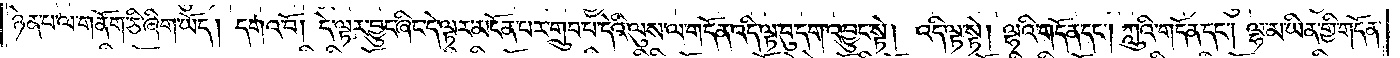ཉེན་པ་ལ་གནོག་ཅི་ཞིག་ཡོད། དགའ་བོ། དེ་ལྟར་བྱུང་ཞིང་དེ་ལྟར་མངོན་པར་གྲུབ་པ་དེའི་ལུས་ལ་གདོན་འདི་ལྟ་བུ་དག་འབྱུང་སྟེ། འདི་ལྟ་སྟེ། ལྷའི་གདོན་དང༌། ཀླུའི་གདོན་དང༌། ལྷ་མ་ཡིན་གྱི་གདོན་
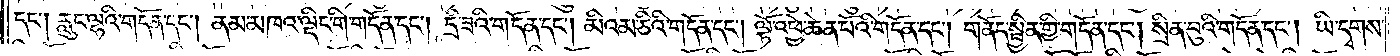དང༌། རླུང་ལྷའི་གདོན་དང༌། ནམ་མཁའ་ལྡིང་གི་གདོན་དང༌། དྲི་ཟའི་གདོན་དང༌། མིའམ་ཅིའི་གདོན་དང༌། ལྟོ་འཕྱེ་ཆེན་པོའི་གདོན་དང༌། གནོད་སྦྱིན་གྱི་གདོན་དང༌། སྲིན་བུའི་གདོན་དང༌། ཡི་དྭགས་
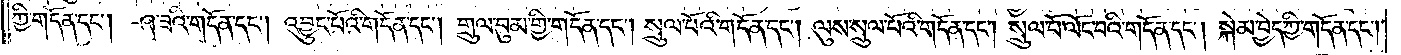ཀྱི་གདོན་དང༌། ཤ་ཟའི་གདོན་དང༌། འབྱུང་པོའི་གདོན་དང༌། གྲུལ་བུམ་གྱི་གདོན་དང༌། སྲུལ་པོའི་གདོན་དང༌། ལུས་སྲུལ་པོའི་གདོན་དང༌། སྲུལ་པོ་ལོང་བའི་གདོན་དང༌། སྐེམ་བྱེད་ཀྱི་གདོན་དང༌།
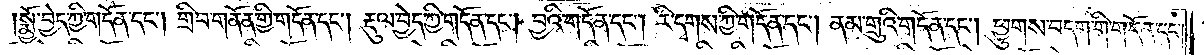སྨྱོ་བྱེད་ཀྱི་གདོན་དང༌། གྲིབ་གནོན་གྱི་གདོན་དང༌། རྡུལ་བྱེད་ཀྱི་གདོན་དང༌། བྱའི་གདོན་དང༌། རི་དྭགས་ཀྱི་གདོན་དང༌། ནམ་གྲུའི་གདོན་དང༌། ཕྱུགས་བདག་གི་གདོན་དང་
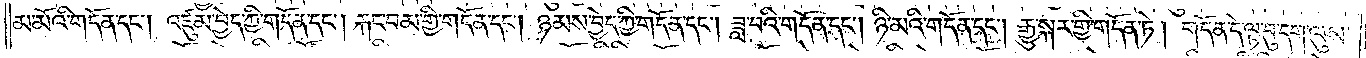མ་མོའི་གདོན་དང༌། འཛུམ་བྱེད་ཀྱི་གདོན་དང༌། རྐང་བམ་གྱི་གདོན་དང༌། ཉམས་བྱེད་ཀྱི་གདོན་དང༌། ཟླ་བའི་གདོན་དང༌། ཉི་མའི་གདོན་དང༌། རྒྱུ་སྐར་གྱི་གདོན་ཏེ། གདོན་དེ་ལྟ་བུ་དག་ལུས་
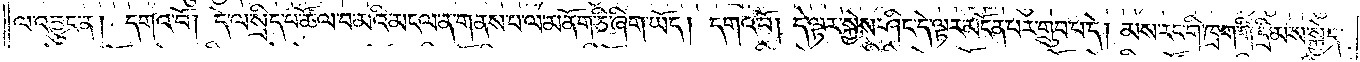ལ་འབྱུང་ན། དགའ་བོ། དེ་ལ་སྲིད་པ་ཚོལ་བ་མའི་མངལ་ན་གནས་པ་ལ་མནོག་ཅི་ཞིག་ཡོད། དགའ་བོ། དེ་ལྟར་སྐྱེས་ཤིང་དེ་ལྟར་མངོན་པར་གྲུབ་པ་དེ། མས་རང་གི་ཁྲག་གི་དྲི་མས་སྐྱེད་
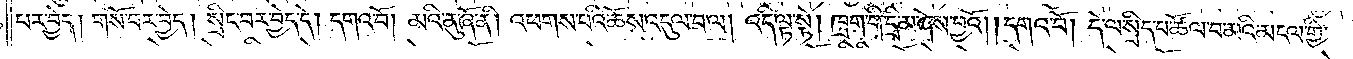པར་བྱེད། གསོ་བར་བྱེད། སྲིང་བར་བྱེད་དེ། དགའ་བོ། མའི་ནུ་ཞོ་ནི། འཕགས་པའི་ཆོས་འདུལ་བ་ལ། འདི་ལྟ་སྟེ། ཁྲག་གི་དྲི་མ་ཞེས་བྱའོ། །དགའ་བོ། དེ་ལ་སྲིད་པ་ཚོལ་བ་མའི་མངལ་གྱི་
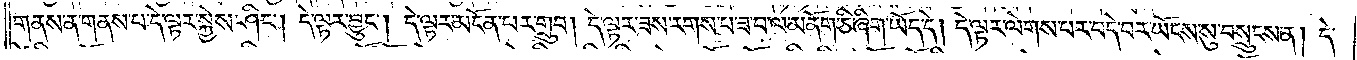གནས་ན་གནས་པ་དེ་ལྟར་སྐྱེས་ཤིང༌། དེ་ལྟར་བྱུང༌། དེ་ལྟར་མངོན་པར་གྲུབ། དེ་ལྟར་ཟས་རགས་པ་ཟ་བ་ལ་མནོག་ཅི་ཞིག་ཡོད་དེ། དེ་ལྟར་ལེགས་པར་བདེ་བར་ཡོངས་སུ་བསྲུངས་ན། དེ་
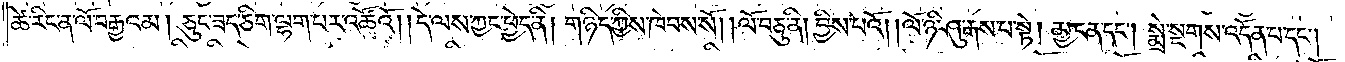ཚེ་རིང་ན་ལོ་བརྒྱའམ། ཅུང་ཟད་ཅིག་ལྷག་པར་འཚོའོ། །དེ་ལས་ཀྱང་ཕྱེད་ནི། གཉིད་ཀྱིས་ཁེབས་སོ། །ལོ་བཅུ་ནི། བྱིས་པའོ། །ལོ་ཉི་ཤུ་རྒས་པ་སྟེ། མྱ་ངན་དང༌། སྨྲེ་སྔགས་འདོན་པ་དང༌།
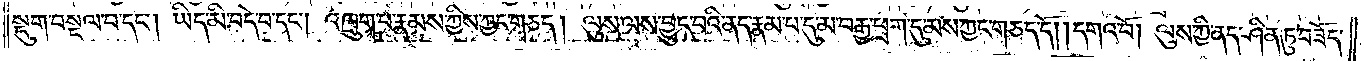སྡུག་བསྔལ་བ་དང༌། ཡིད་མི་བདེ་བ་དང༌། འཁྲུག་པ་རྣམས་ཀྱིས་ཀྱང་གཅད། ལུས་ལས་བྱུང་བའི་ནད་རྣམ་པ་དུ་མ་བརྒྱ་ཕྲག་དུ་མས་ཀྱང་གཅད་དོ། །དགའ་བོ། ལུས་ཀྱི་ནད་ཤིན་ཏུ་བཟོད་
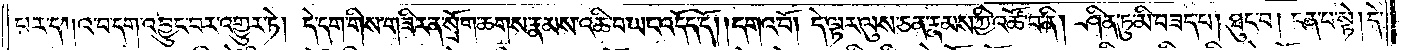པར་དཀའ་བ་དག་འབྱུང་བར་འགྱུར་ཏེ། དེ་དག་གིས་གཟིར་ན་སྲོག་ཆགས་རྣམས་འཆི་བ་ཡང་འདོད་དོ། །དགའ་བོ། དེ་ལྟར་ལུས་ཅན་རྣམས་ཀྱི་འཚོ་བ་ནི། ཤིན་ཏུ་མི་བཟད་པ། ཐུང་བ། ངན་པ་སྟེ། དེ་
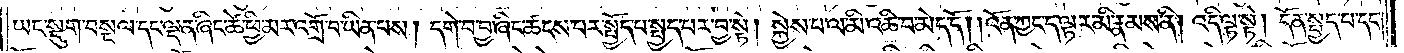ཡང་སྡུག་བསྔལ་དང་ལྡན་ཞིང་ཚེ་ཕྱི་མར་འགྲོ་བ་ཡིན་པས། དགེ་བ་བྱ་ཞིང་ཚངས་པར་སྤྱོད་པ་སྤྱད་པར་བྱ་སྟེ། སྐྱེས་པ་ལ་མི་འཆི་བ་མེད་དོ། །འོན་ཀྱང་ད་ལྟར་མི་རྣམས་ནི། འདི་ལྟ་སྟེ། དོན་སྤྱད་པ་དང༌།
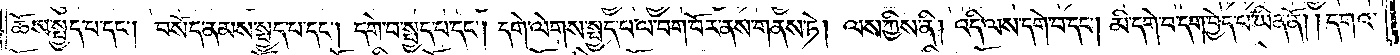ཆོས་སྤྱད་པ་དང༌། བསོད་ནམས་སྤྱད་པ་དང༌། དགེ་བ་སྤྱད་པ་དང༌། དགེ་ལེགས་སྤྱད་པ་ལ་བག་བོར་ནས་གནས་ཏེ། ལས་ཀྱིས་ནི། འདི་ལས་དགེ་བ་དང༌། མི་དགེ་བ་དག་བྱེད་པ་ཡིན་ནོ། །དགའ་
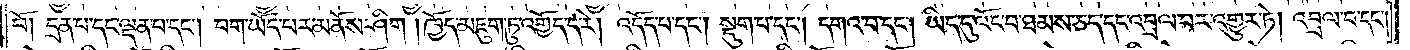བོ། དྲན་པ་དང་ལྡན་པ་དང༌། བག་ཡོད་པར་མནོས་ཤིག །ཁྱོད་མཇུག་ཏུ་འགྱོད་ད་རེ། འདོད་པ་དང༌། སྡུག་པ་དང༌། དགའ་བ་དང༌། ཡིད་དུ་འོང་བ་ཐམས་ཅད་དང་འབྲལ་བར་འགྱུར་ཏེ། འབྲལ་བ་དང༌།
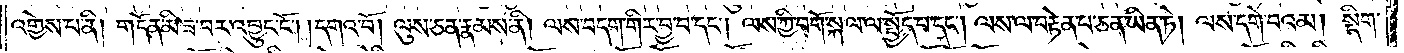འགྱེས་པ་ནི། གདོན་མི་ཟ་བར་འབྱུང་ངོ༌། །དགའ་བོ། ལུས་ཅན་རྣམས་ནི། ལས་བདག་གིར་བྱ་བ་དང༌། ལས་ཀྱི་བགོ་སྐལ་ལ་སྤྱོད་པ་དང༌། ལས་ལ་བརྟེན་པ་ཅན་ཡིན་ཏེ། ལས་དགེ་བའམ། སྡིག་
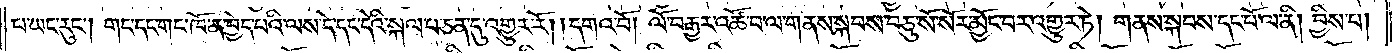པ་ཡང་རུང༌། གང་དང་གང་ཁོ་ན་བྱེད་པའི་ལས་དེ་དང་དེའི་སྐལ་བ་ཅན་དུ་འགྱུར་རོ། །དགའ་བོ། ལོ་བརྒྱར་འཚོ་བ་ལ་གནས་སྐབས་བཅུ་སོ་སོར་མྱོང་བར་འགྱུར་ཏེ། གནས་སྐབས་དང་པོ་ལ་ནི། བྱིས་པ།
